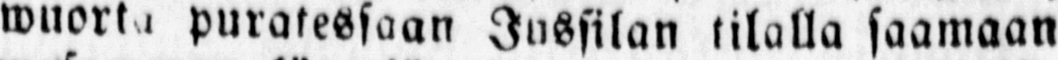wuorta puratessaan Jussilan tilalla saamaan
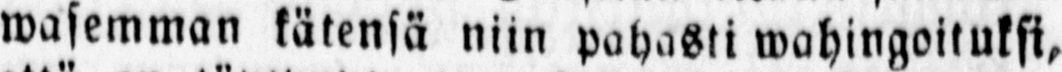wasemman kätensä niin pahasti wahingoituksi,
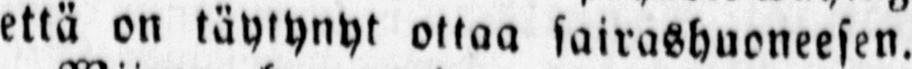että on täytynyt ottaa sairashuoneesen.
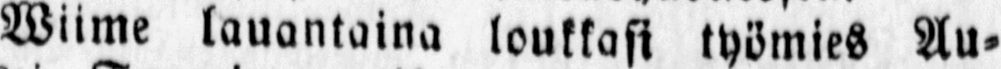Wiime lauantaina toukkasi työmies Au-
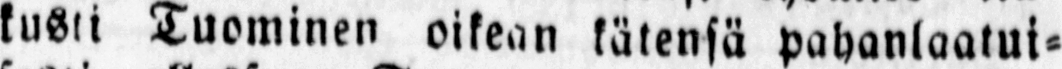kusti Tuominen oikean kätensä pahanlaatui-
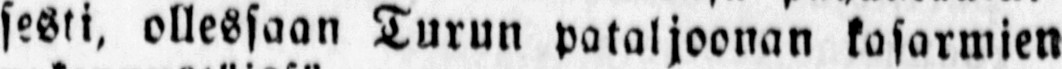sesti, ollessaan Turun pataljoonan kasarmien
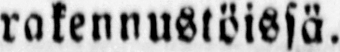rakennustöissä.
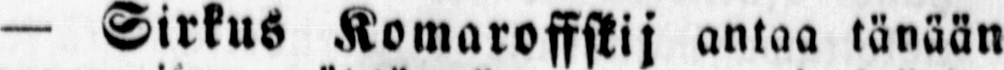— Sirkus Komaroffskij antaa tänään
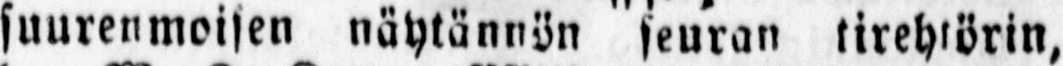suurenmoisen näytännön seuran tirehlörin,
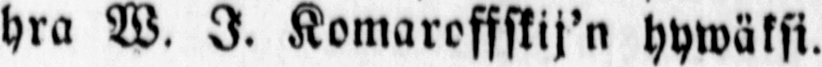hra W. I. Komaroffskij'n hywäksi.
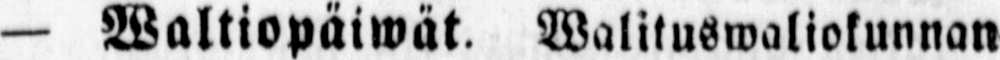— Waltiopäiwät. Walituswaliokunnan
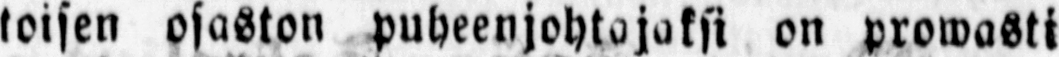toisen osaston puheenjohtajaksi on prowasti
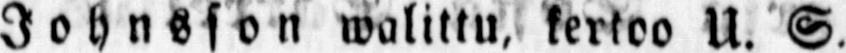Johnsson walittu, kertoo U. S.
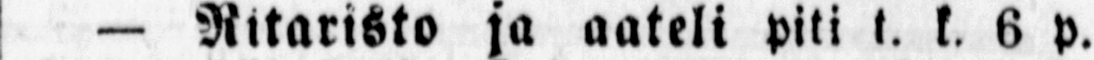— Ritaristo ja aateli piti t. k. 6 p.
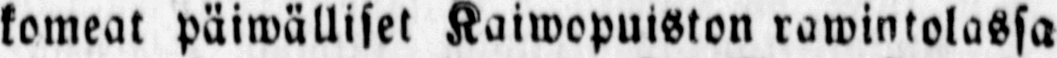komeat päiwälliset Kaiwopuiston rawintolassa
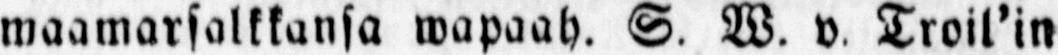maamarsalkkansa wapaah. S. W. v Troil'in
